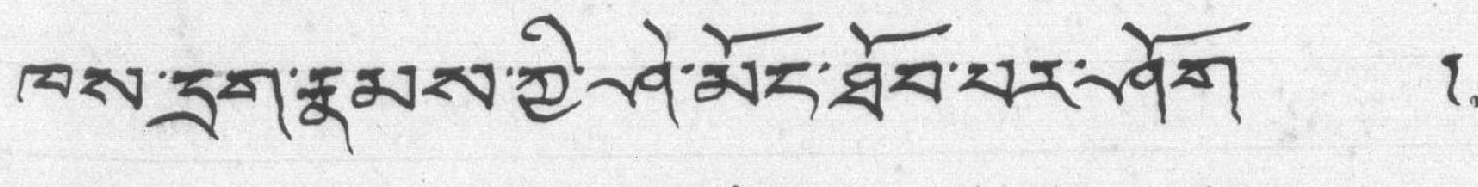ཁས་དྲག་རྣམས་ཀྱི་ཤེ་མོང་ཐོབ་པར་ཤོག །
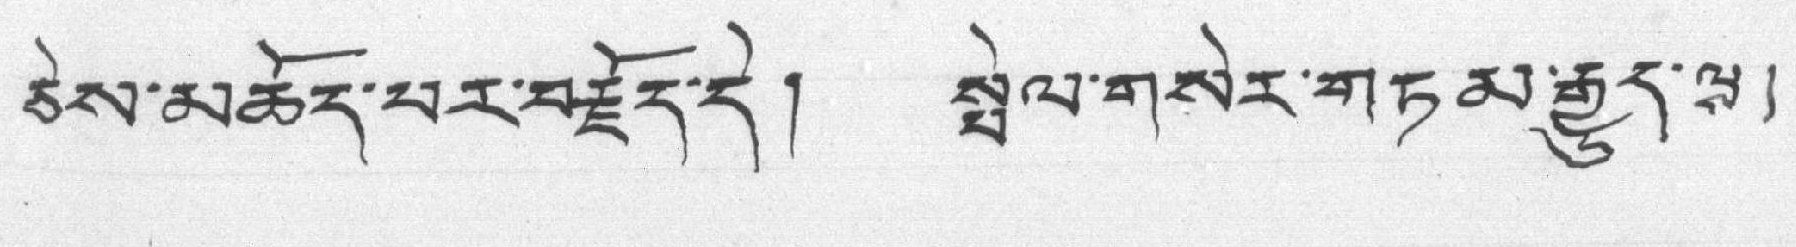ཅེས་མཆོད་པར་བརྗོད་དེ། སྤེལ་གསེར་གཏམ་རྒྱུད་ལས།
